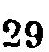29
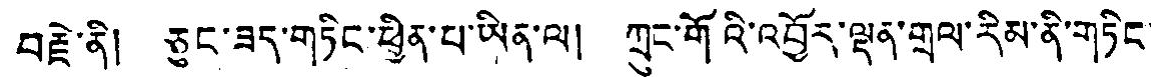བརྗེ་ནི། ཅུང་ཟད་གཏིང་ཕྱིན་པ་ཡིན་ལ། ཀྲུང་གོའི་འབྱོར་ལྡན་གྲལ་རིམ་ནི་གཏིང་
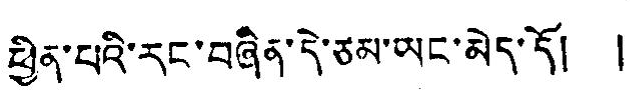ཕྱིན་པའི་རང་བཞིན་དེ་ཙམ་ཡང་མེད་དོ། །
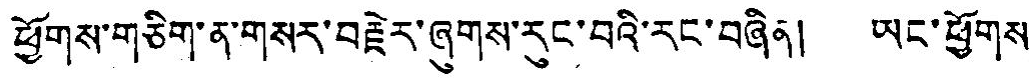ཕྱོགས་གཅིག་ན་གསར་བརྗེར་ཞུགས་རུང་བའི་རང་བཞིན། ཡང་ཕྱོགས་
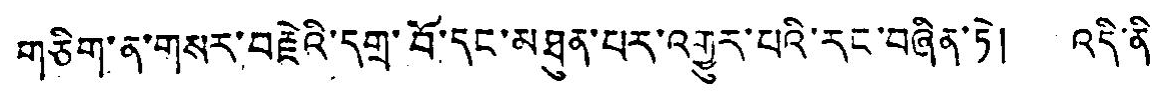གཅིག་ན་གསར་བརྗེའི་དགྲ་བོ་དང་མཐུན་པར་འགྱུར་པའི་རང་བཞིན་ཏེ། འདི་ནི་
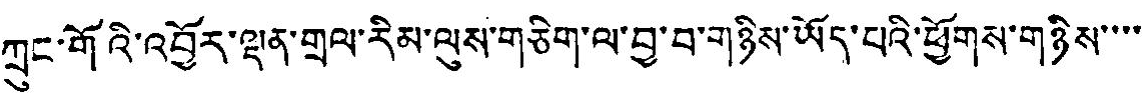ཀྲུང་གོའི་འབྱོར་ལྡན་གྲལ་རིམ་ལུས་གཅིག་ལ་བྱ་བ་གཉིས་ཡོད་པའི་ཕྱོགས་གཉིས་་་་
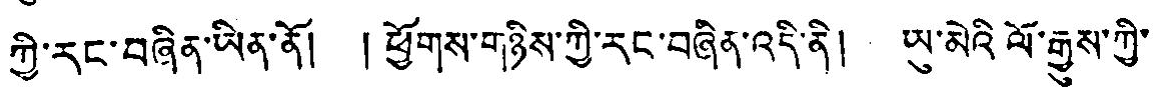ཀྱི་རང་བཞིན་ཡིན་ནོ། །ཕྱོགས་གཉིས་ཀྱི་རང་བཞིན་འདི་ནི། ཡ་མེའི་ལོ་རྒྱུས་ཀྱི་
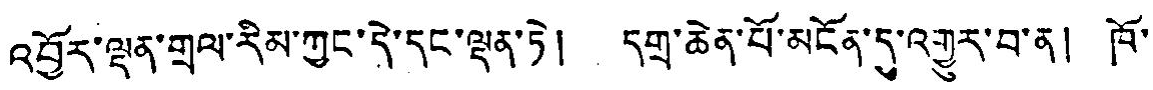འབྱོར་ལྡན་གྲལ་རིམ་ཀྱང་དེ་དང་ལྡན་ཏེ། དགྲ་ཆེན་པོ་མངོན་དུ་འགྱུར་བ་ན། ཁོ་
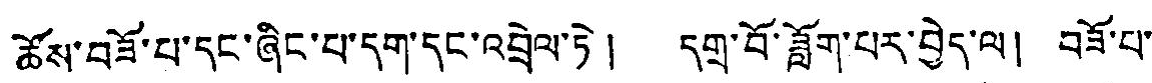ཚོས་བཟོ་པ་དང་ཞིང་པ་དག་དང་འབྲེལ་ཏེ། དགྲ་བོ་ཟློག་པར་བྱེད་ལ། བཟོ་པ་
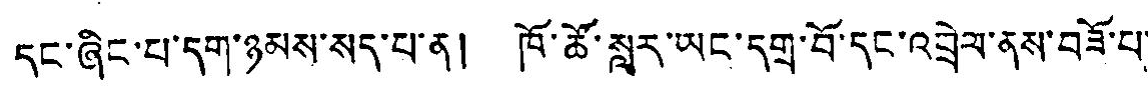དང་ཞིང་པ་དག་ཉམས་སད་པ་ན། ཁོ་ཚོ་སླར་ཡང་དགྲ་བོ་དང་འབྲེལ་ནས་བཟོ་པ་
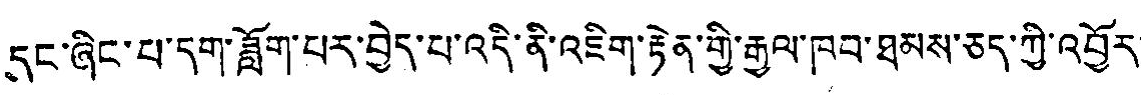དང་ཞིང་པ་དག་ཟློག་པར་བྱེད་པ་འདི་ནི་འཇིག་རྟེན་གྱི་རྒྱལ་ཁབ་ཐམས་ཅད་ཀྱི་འབྱོར་
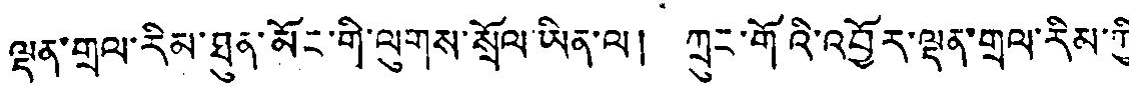ལྡན་གྲལ་རིམ་ཐུན་མོང་གི་ལུགས་སྲོལ་ཡིན་ལ། ཀྲུང་གོའི་འབྱོར་ལྡན་གྲལ་རིམ་གྱི་
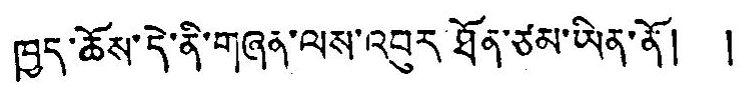ཁྱད་ཆོས་དེ་ནི་གཞན་ལས་འབུར་ཐོན་ཙམ་ཡིན་ནོ། །
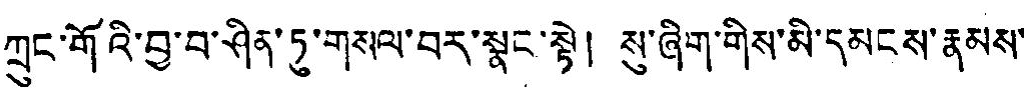ཀྲུང་གོའི་བྱ་བ་ཤིན་ཏུ་གསལ་བར་སྣང་སྟེ། སུ་ཞིག་གིས་མི་དམངས་རྣམས་
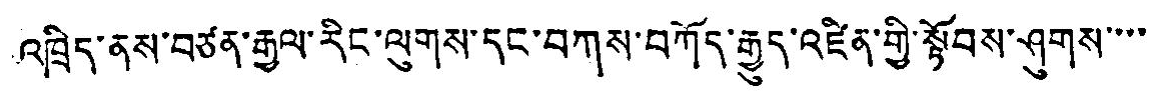འཁྲིད་ནས་བཙན་རྒྱལ་རིང་ལུགས་དང་བཀས་བཀོད་རྒྱུད་འཛིན་གྱི་སྟོབས་ཤུགས་་་་
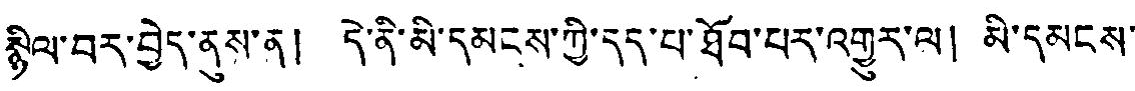སྙིལ་བར་བྱེད་ནས་ན། དེ་ནི་མི་དམངས་ཀྱི་དད་པ་ཐོབ་པར་འགྱུར་ལ། མི་དམངས་
